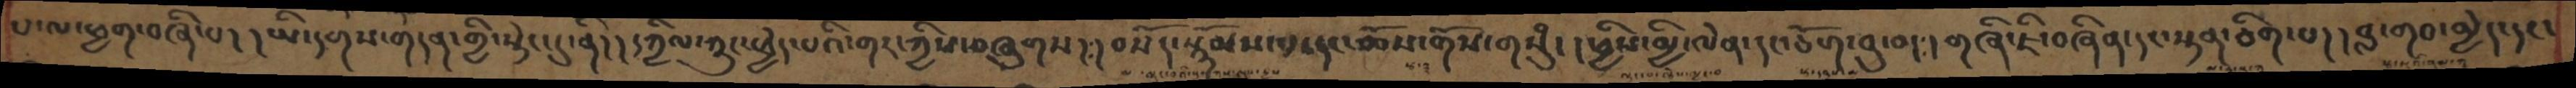པ་ལ་ཕྱག་བཞི་པ། །ཡི་དགས་གདན་གྱི་སྟེང་དུ་ནི། །དཀྱིལ་ཀྲུང་ཕྱེད་པའི་གར་ཀྱིས་བཞུགས། །བསོད་སྙོམས་པ་དང་ཆོས་གོས་གསུཾ། །ཕྱིས་མྱི་ལེན་དང་ཅོག་བུ་བ། །གཞི་ཇི་བཞིན་དང་སྟན་ཅིག་པ། །བླ་གབ་མྱེད་དང་
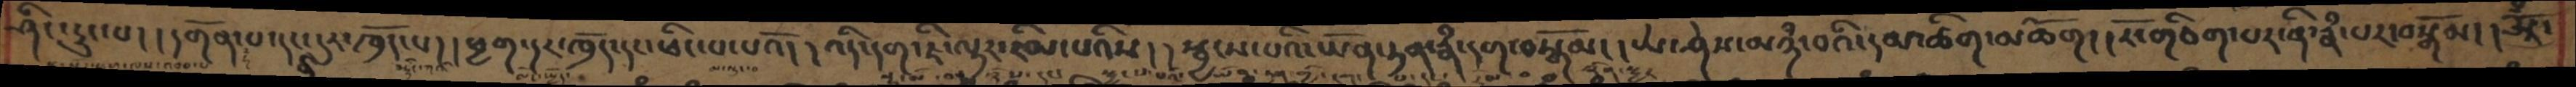ཤིང་དྲུང་པ། །དགོན་པ་དང་ནི་དུར་ཁྲོད་པ། །ཕྱག་དར་ཁྲོད་དང་ཕིང་པ་པའོ། །འདི་དག་ཇི་ལྟར་རིམ་པའིས། །སྦྱངས་པའི་ཡོན་ཏན་རྣཾ་དག་བསྒོམ། །ཡེ་ཤེས་མཉཾ་པའི་དམ་ཚིག་མཆོག། །རོ་གཅིག་པར་ནི་རྣཾ་པར་བསྒོམ། །ཨཱོྃ་
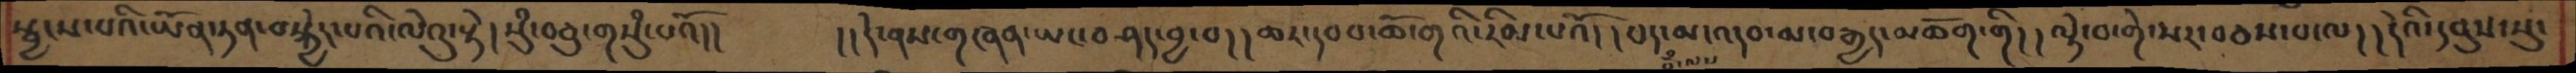སྦྱངས་པའི་ཡོན་ཏན་བསྐྱེད་པའི་ལེའུ་སྟེ།སུཾ་བཅུ་གསུཾ་པའོ།།   །།དེ་ནས་གཞན་ཡང་བཤད་བྱ་བ། །ཆར་དབབ་ཆོ་གའི་རིམ་པའོ། །པད་མ་འདབ་མ་བརྒྱད་མཆོག་གི། །ལྟེ་བ་གེ་སར་བཅས་པ་ལ། །དེའི་དབུས་སུ་
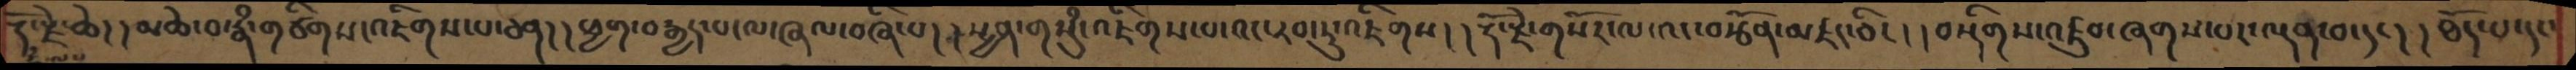རྡོ་རྗེ་ཆེ། །མཆེ་བ་རྣཾ་གཙིགས་འཇིགས་པ་ཅན། །ཕྱག་བརྒྱད་པ་ལ་ཞལ་བཞི་པ། །སྤྱན་གསུཾ་འཇིག་པ་འང་རབ་ཏུ་འཇིགས། །རྡོ་རྗེ་གསོར་ལ་འང་བརྩོན་མཛད་ཅིང། །བསྡིགས་འཛུབ་ཞགས་པར་ལྡན་བ་དང། །ཐོད་པ་དང་
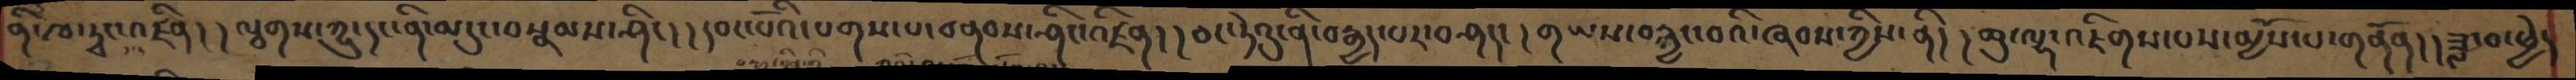ནི་ཁ་ཏྭང་འཛིན། །ལྕགས་ཀྱུ་དང་ནི་མདུང་བསྣམས་ཤིང། །དབང་པོའི་པགས་པ་བནབས་ཤིང་འཛིན། །ཅང་ཏེའུ་ནི་བརྒྱད་པར་བཤད། །གཡས་བརྐྱང་བའི་ཞབས་ཀྱིས་ནི། །ཆུ་ལྷ་འཇིགས་པས་མྱོས་པ་གནོན། །ཟླ་བ་ཕྱེད
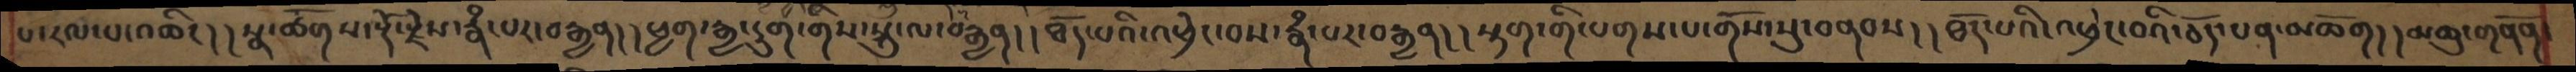པ་རལ་པ་འཆིང། །སྣ་ཚོགས་རྡོ་རྗེས་རྣཾ་པར་བརྒྱན། །ཕྱག་རྒྱ་དྲུག་གིས་སྐུ་ལ་བརྒྱན། །ཐོད་པའི་འཕྲེང་བས་རྣཾ་པར་བརྒྱན། །སྟག་གི་པགས་པ་གོས་སུ་བནབས། །ཐོད་པའི་འཕྲེང་བའི་ཅོད་པན་མཆོག། །མཆུ་གནོན་
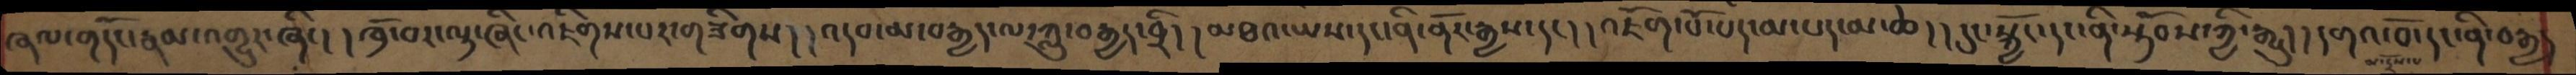ཞལ་གདོང་རྣམ་འགྱུར་ཞིང། །ཁྲོ་བར་ལྟ་ཞིང་འཇིགས་པར་གཟིགས། །འདབ་མ་བརྒྱད་ལ་ཀླུ་བརྒྱད་བྲི། །མཐའ་ཡས་དང་ནི་ནོར་རྒྱས་དང། །འཇོག་པོ་པད་མ་པད་མ་ཆེ། །དུང་སྐྱོང་དང་ནི་སྟོབས་ཀྱི་རྒྱུ། །དགའ་བོ་དང་ནི་བརྒྱད
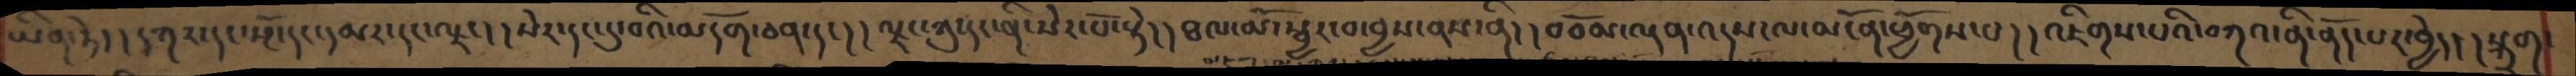ཡིན་ཏེ། །དཀར་དང་སྔོ་དང་དམར་དང་ལྗང། །སེར་དང་དུ་བའི་མདོག་ཅན་དང། །ལྗང་ཀུ་དང་ནི་སེར་པོ་སྟེ། །ཐལ་མོ་སྦྱར་བ་བྱས་ནས་ནི། །བཅོམ་ལྡན་འདས་ལ་མངོན་ཕྱོགས་པ། །འཇིགས་པའི་བཀའ་ནི་ནོད་པར་བྱེད། །སྐྲག
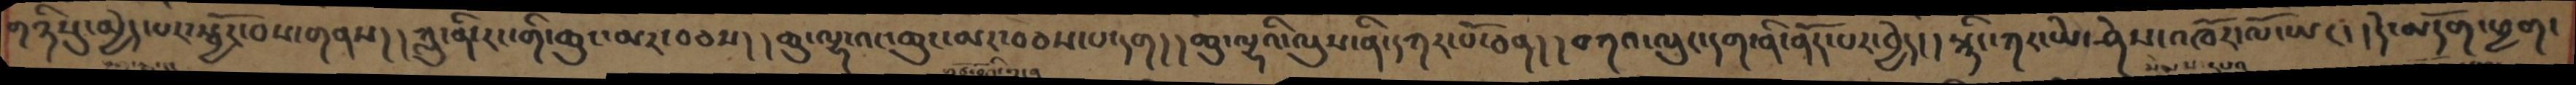གཉིསུ་མྱེད་པར་སྦྱོར་བས་གནས། །ཀླུ་ནི་རང་གི་ཆུང་མར་བཅས། །ཆུ་ལྷ་འང་ཆུང་མར་བཅས་པ་དག། །ཆུ་ལྷའི་ལུས་ནི་དཀར་པོ་ཅན། །བཀའ་ལུང་དག་ནི་ནོད་པར་བྱེད། །སྙིང་ཀར་ཡེ་ཤེས་འཁོར་ལོ་ཡང། །དེ་མདོག་ཕྱག་
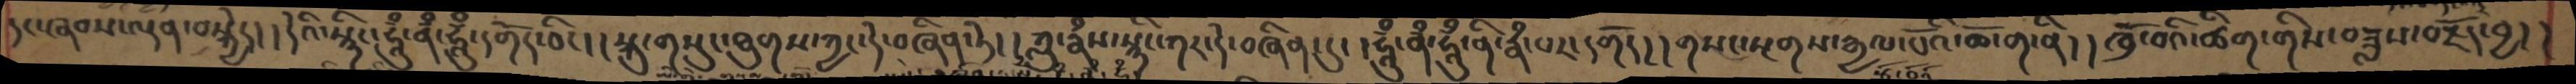དང་ཞབས་ལྡན་བསྐྱེད། །དེའི་སྙིང་ཧཱུྃ་ནྃ་ཧཱུྃ་དགོད་ཅིང། །སྐུ་གསུང་ཐུགས་ཀྱང་དེ་བཞིན་ཏེ། །ཀླུ་རྣཾས་སྙིང་ཀར་དེ་བཞིན་དུ། །ཧཱུྃ་ནྃ་ཧཱུྃ་ནི་རྣཾ་པར་དགོད། །གསང་སྔགས་རྒྱལ་པོའི་ཆོ་ག་ནི། །ཁྲོ་བའི་ཚིག་གིས་བཟླས་བརྗོད་བྱ། །
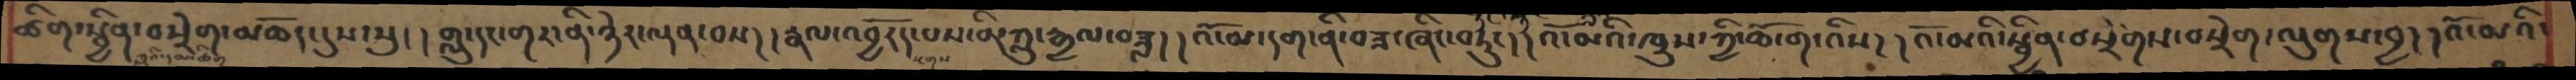ཚིག་སྦྱིན་བསྲེག་མཆོད་དུས་སུ། །གླུ་དང་གར་ནི་ཉེར་ལྡན་བས། །རྣལ་འབྱོརད་པས་ནི་ཀླུ་རྒྱལ་བཟླ། །འོ་མ་དག་ནི་བཟ་ཞིང་བཏུང། །འོ་མའི་ཁྲུས་ཀྱི་ཆོ་ག་འིས། །འོ་མའི་སྦྱིན་བསྲེགས་བསྲེག་ལུགས་བྱ། །འོ་མའི་
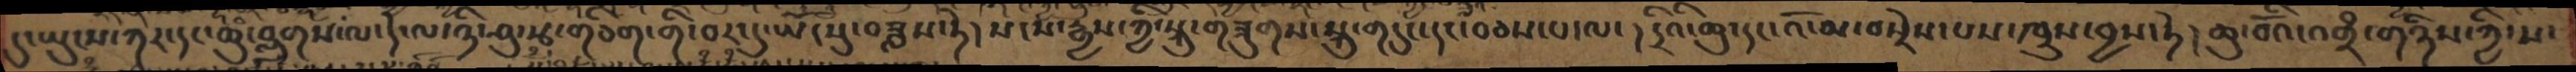དུ་ཡུངས་དཀར་དང་ཆུ་བླུགས་ལ་དེ་ལ་ཉི་ཤུ་རྩ་གཅིག་གི་བར་དུ་ཡོངསུ་བཟླས་ཏེ། སངས་རྒྱས་ཀྱི་སྐུ་གཟུགས་སྐུ་གདུང་དང་བཅས་པ་ལ། དྲིའི་ཆུ་དང་འོ་མ་བསྲེས་པས་ཁྲུས་བྱས་ཏེ། ཆུ་བོའི་འགྲཾ་གཉིས་ཀྱི་ས་
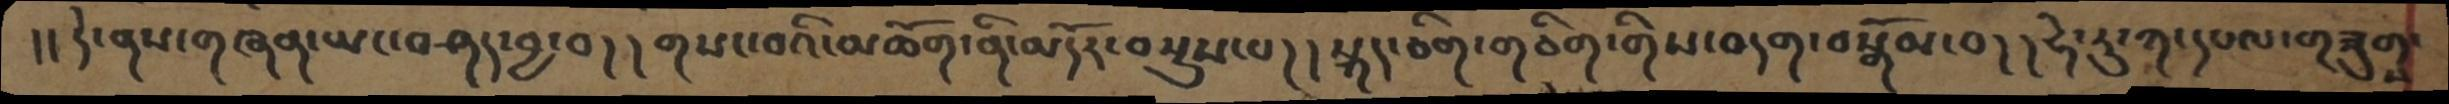།།དེ་ནས་གཞན་ཡང་བཤད་བྱ་བ། །གསང་བའི་མཆོག་ནི་མདོར་བསྡུས་པ། །སྐད་ཅིག་གཅིག་གིས་བདག་བསྒོམ་བ། །ཧེ་རུ་ཀ་དཔལ་གཟུགས་
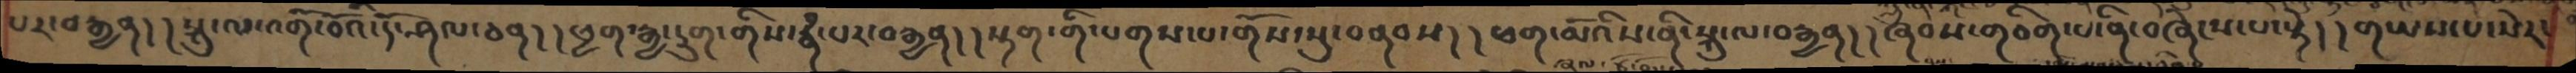པར་བརྒྱན། །སྐུ་ལ་འགོ་བོའི་དོ་ཤལ་ཅན། །ཕྱག་རྒྱ་དྲུག་གིས་རྣཾ་པར་བརྒྱན། །སྟག་གི་པགས་པ་གོས་སུ་བནབས། །ཕག་མོའི་ས་ནི་སྐུ་ལ་བརྒྱན། །ཞབས་གཅིག་པ་ནི་བཞེངས་པ་སྟེ། །གཡས་པ་སེར་
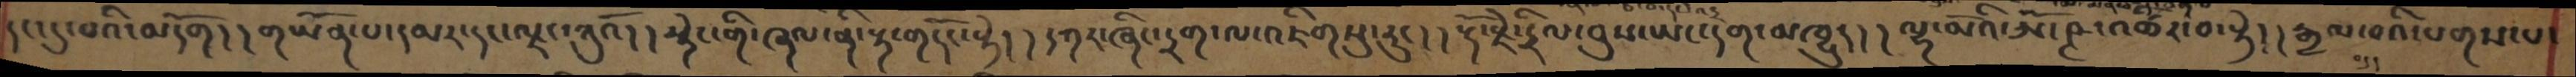དང་དུ་བའི་མདོག། །གཡོན་པ་དམར་དང་ལྗང་ཀུའོ། །སྟེང་གི་ཞལ་ནི་རྟ་གདོང་སྟེ། །དཀར་ཞིང་དྲག་ལ་འཇིགསུ་རུང། །རྡོ་རྗེ་དྲིལ་བུས་ཡང་དག་མཁྱུད། །ལྷ་མོའི་ཨོ་ཤྚ་འཚིར་བ་སྟེ། །རྒྱལ་བའི་པགས་པ་
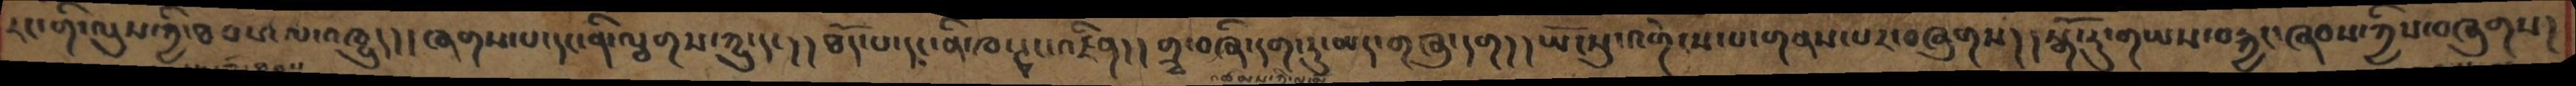རང་གི་ལུས་ཀྱི་ཐབས་ལ་འཁྱུད། །ཞགས་པ་དང་ནི་ལྕགས་ཀྱུ་དང། །ཐོད་པ་དང་ནི་ཁ་ཊྭང་འཛིན། །གྲྭ་བཞི་དག་ཏུ་མར་གཞུ་དག། །ཡོངསུ་འགེངས་པ་གནས་པར་བཞུགས། །སྒོ་རུ་གཡས་བརྐྱང་ཞབས་ཀྱིས་བཞུགས།
